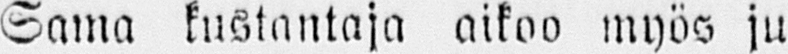Sama kustantaja aikoo myös ju-
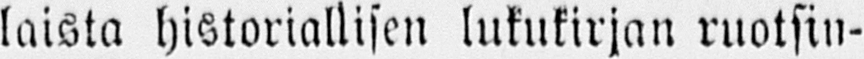laista historiallisen lukukirjan ruotsin-
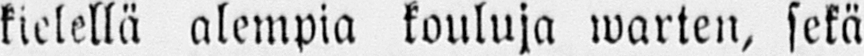kielellä alempia kouluja warten, sekä
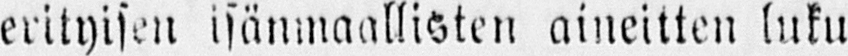erityisen isänmaallisten aineitten luku-
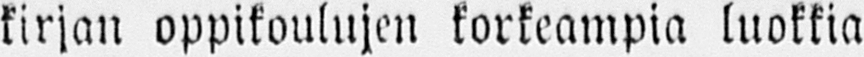kirjan oppikoulujen korkeampia luokkia
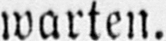warten.
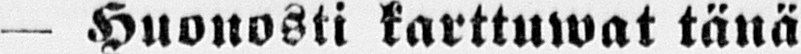— Huonosti karttuwat tänä
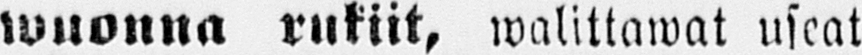wuonna rukiit, walittawat useat
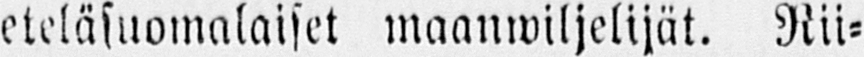eteläsuomalaiset maanwiljelijät. Rii-
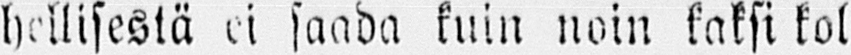hellisestä ei saada kuin noin kaksi kol-
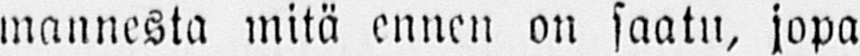mannesta mitä ennen on saatu, jopa
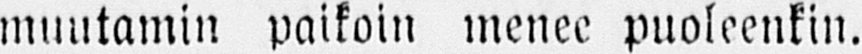muutamin paikoin menee puoleenkin.
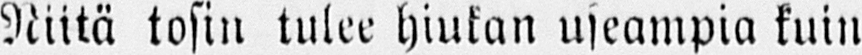Niitä tosin tulee hiukan useampia kuin
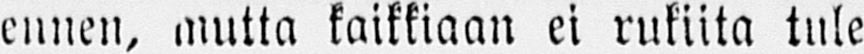ennen, mutta kaikkiaan ei rukiita tule
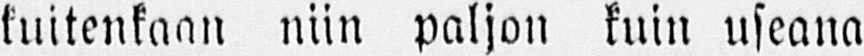kuitenkaan niin paljon kuin useana
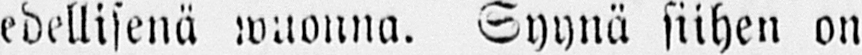edellisenä wuonna. Syynä siihen on
